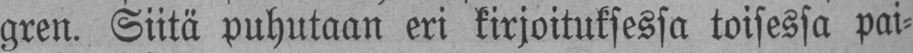gren. Siitä puhutaan eri kirjoituksessa toisessa pai-
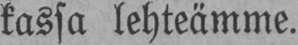kassa lehteämme.
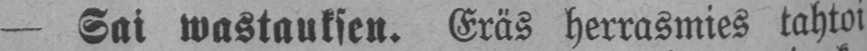— Sai wastauksen. Eräs herrasmies tahtoi
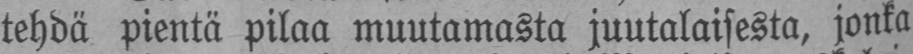tehdä pientä pilaa muutamasta juutalaisesta, jonka
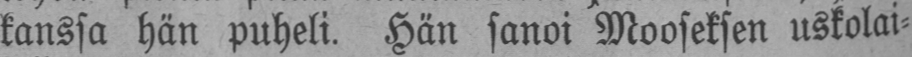kanssa hän puheli. Hän sanoi Mooseksen uskolai-
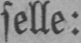selle:
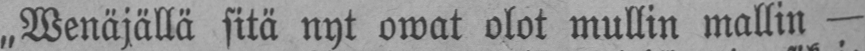„Wenäjällä sitä nyt owat olot mullin mallin —
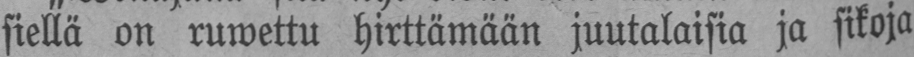siellä on ruwettu hirttämään juutalaisia ja sikoja
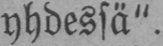yhdessä".
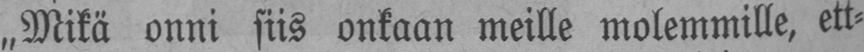„Mikä onni siis onkaan meille molemmille, ett-
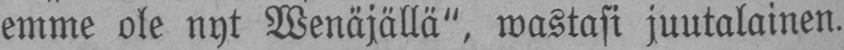emme ole nyt Wenäjällä", wastasi juutalainen.
